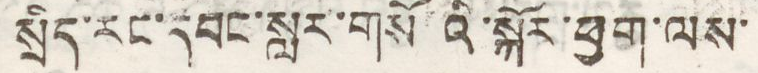སྲིད་རང་དབང་སླར་གསོའི་སྐོར་ཕྱག་ལས་
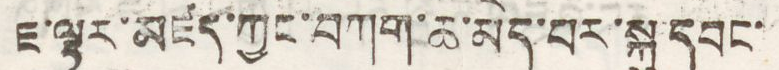ཇ་ལྟར་མཛད་ཀྱང་བཀག་ཆ་མེད་པར་སྐུ་དབང་
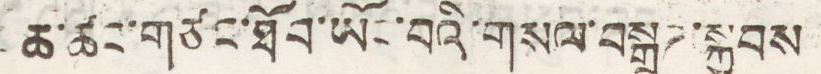ཆ་ཚང་གཙང་ཐོབ་ཡོང་བའི་གསལ་བསྒྲཌ་སྐྱབས
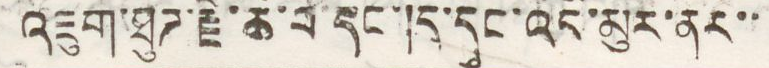འཇུག་ཐུཌ་རྗེ་ཆེ་བ་དང་།ད་དུང་འདི་མུར་ནར་་
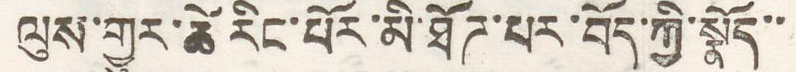ལུས་གྱུར་ཚེ་རིང་པོར་མི་ཐོཌ་པར་བོད་ཀྱི་སྣོད་་
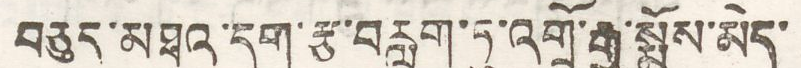བཅུད་མཐའ་དག་རྩ་བརླག་ཏུ་འགྲོ་རྒྱུ་སྨོས་མེད་
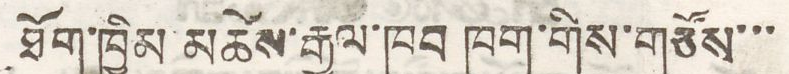ཐོག་ཁྱིམ མཚེས་རྒྱལ་ཁབ ཁག་གིས་གཙོས་་་
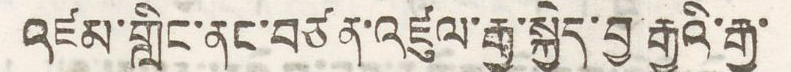འཛམ་གླིང་ནང་བཙན་འཛུལ་རྒྱ་སྐྱེད་བྱ རྒྱུའི་རྒྱ་
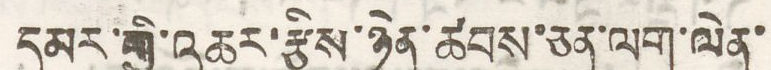དམར་གྱི་མཆར་རྩིས་ཉེན་ཚབས་ཅན་ལག་ལེན་
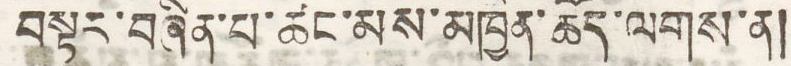བསྟར་བཞིན་པ་ཚང་མས་མཁྱེན་ཆོད་ལགས་ན།
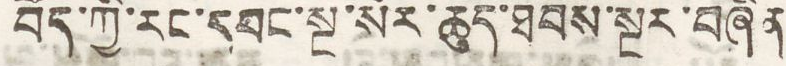བོད་ཀྱི་རང་དབང་སྔ་སོར་ཆུད་ཐབས་སྔར་བཞིན
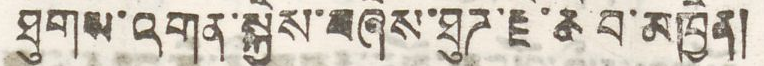ཐུགས་འགན་སྐྱེས་བཞེས་ཐུཌ་རྗེ་ཆེ་བ་མཁྱེན།
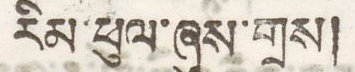རིམ་ཕུལ་ཞུས་གྲས།
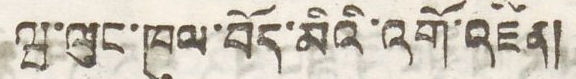ཝ་ལུང་ཁུལ་བོད་མིའི་འགོ་འཛིན།
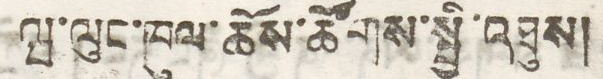ཝ་ལུང་ཁུལ་ཆོས་ཚོགས་སྤྱི་འཐུས།
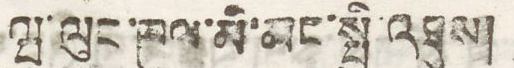ལྦ་ལུང་ཁུལ་མི་མང་སྤྱི་འཐུས།
